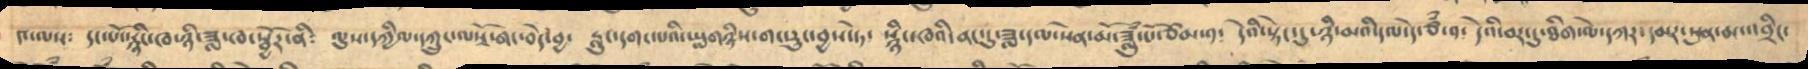༤་ལས༴ དང་པོ་སྙིང་ཁ་ཉི་ཟླ་ཁ་སྦྱོར་ནི༴ ལུས་དཀྱིལ་དཀྲུང་ལསྭོ་གང་བོར་བྱ་ རླུང་དགང་པའི་ཡླག་གཉིས་གང་རུང་བྱས་ཏེ་ སྙིང་ཁའི་ནང་དུ་ཟླ་དལ་སེན་པོ་ཟླུཾ་པོ་ཙཾ་༡༴ དེའི་སྟེང་དུ་ཉི་མའི་དལ་དེ་ཙཾ་༡༴ དེའི་བར་དུ་ཐིག་ལེ་དཀར་དམར་སུན་མ་འབྲིང་
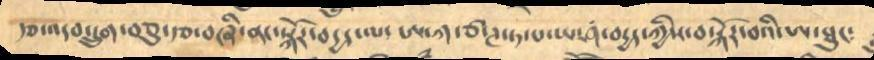རྩ་འདབ་དྲུག་བཅུ་རྩ་བཞི་ནང་སྐོར་བདྱད་ལ་ཨ་ཀ་ཙ་ཊ་ཏ་པ་ཡ་ཤ་བདྱད་ཀྱིས་བསྐོར་བའི་ཨ་ཐུང༴
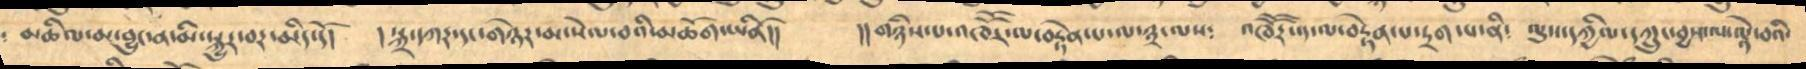མཆིལ་མ་བྱུང་ན་མི་སྐྱུར་མེད་དོ། །སྐྲ་དཀར་དང་གཉེར་མ་སེལ་བའི་མཆོག་ཡིནོ།། །།གཉིས་པ་འཁཽར་ལ་བརྟེན་པ་ལ་༣་ལས༴ འཁོོར་ན་ལ་བརྟེན་པ་དྲག་པ་ནི༴ ལུས་དཀྱིལ་དཀྲུང་བྱས་ལ་ལྟེ་བའི་
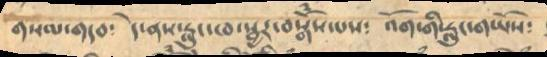གསལ་གདབ༴ དེ་ནས་རྨུང་ཁ་སྦྱར་བསྒོཾས་པས༴  འོག་གི་རླུང་གཡོས༴
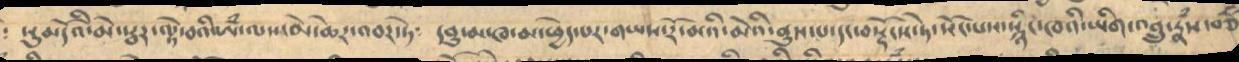སུམདོའི་མེ་སྦར་ལྟེ་བའི་ཨཾ་ལས་མེ་ཆེར་འབར་ཏེ༴ དབུ་མ་ཁ་མ་ཕྱེད་པར་གཡས་རོ་མེའི་ནུས་པ་དང་བསྟོངས་ཏེ་སོང་པས་སྙིང་ཁའི་ཡིག་འབྲུ་རྣཾས་བཅོཾ
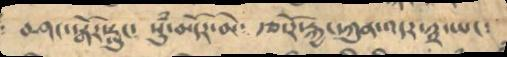བཤད་རྒོར་རླུང༴  སུཾ་མདོར་མེ༴  རྩ་རོ་རྐྱང་ཀུན་འདར་༣་ཡང༴
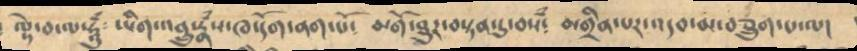ལྟེ་བ་ལ་ཧཱུཾ༴ ཡིག་འབྲུ་སྣཾས་ཁ་དོག་ནག་པོ༴  མགོ་ཐུར་བསྟན་དུ་བསཾ༴ མགྲིན་པར་འདབ་མ་བཅྲུག་པ་ལ།
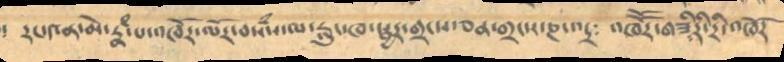༴ རང་༩ན་མེ་རྣཾ་པ་འཁོར་ལོར་བསཾས་ལ་རླུང་ཁ་སྦྱར་གྲངས་ཅན་གྲངས་ཎ་འདྲ༴  འཁཽར་གཟིར་ིརི་འཁོར
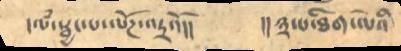།  ལཾ་སྦྱང་པ་ལོཌ་འདྲའོ།།  །།༣་པ་ཐིག་ལེའི་
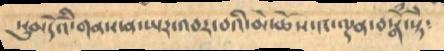སུམདོའི་གནས་ན་ཡར་འབར་བའི་མེ་ཆོས་༩་ལྡན་བསྒོཾ་སྟེ༴
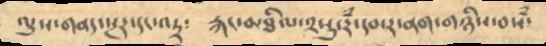ལུས་གནད་སྔར་རང་འདྲ༴  རྐང་མཐིལ་༢སུ་རཾ་དམར་ནག་གཉིས་བསཾ
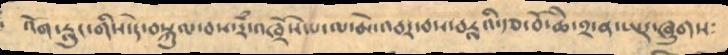འོག་རླུང་གིས་དེ་བསྐུལ་བས་རཾ་འཁོས་པ་ལ་མེ་འབར་བས་བརླའི་རྩ་བོ་ཆེ་༢་ན་ཡར་ཞུགས༴
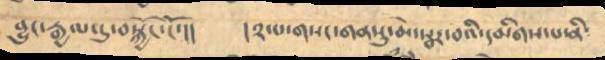བྱུང་རྒྱལ་དུ་བསྐྱོང་ངོ་།།   །༢་པ་གསང་གནསུ་མེ་སྦར་བའི་དམིགས་པ་ནི༴
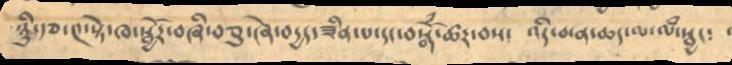ཉིུ་རྩ་༩་སྟེ་ཁ་སྦྱོར་བཞི་བཅུ་ཞེ་བརྱད་ཟིན་པ་དང་བསྒོཾ་ཚར་བས༴  འདི་མན་ཆད་ལ་ལཾ་སྦྱང༴
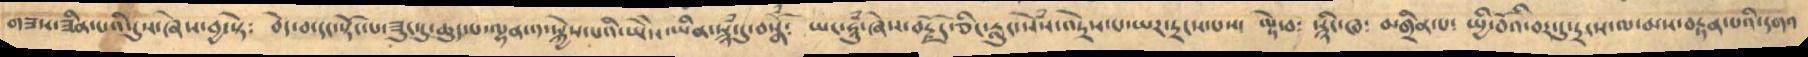གཟས་ཟིན་པའི་དུས་ཞེས་བྱ་སྟེ༴  བདེ་བ་དང་སྟོང་པ་ཟུངསུ་ཆུད་པ་ལྷན་སྐྱེས་པའི་ཡེེས་ཡིན་སྙཾསུ་བསྒོཾ༴  ཡང་ཧཱུཾ་ཞེས་བརྗོད་ཅིང་རླུང་སེཾས་འདྲེས་པ་ཡར་དྲངས་པས་ ལྟེ་བ༴  སྙིང་ཁ༴ མགྲིན་པ༴ སྤྱི་བོའི་བར་དུ་དྲངས་ལ་མས་བརྟན་པའི་དགའ
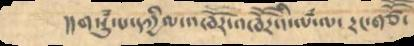།།གསུཾ་པ་དཀྱིལ་འཁོར་འཁོོར་དི་ལཾ་ལ་རང་གཙོ་
